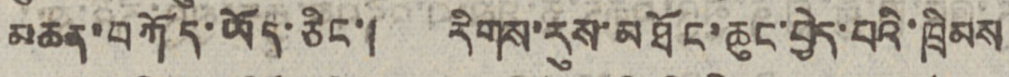མཆན་བཀོད་ཡོད་ཅིང་། རིགས་རུས་མཐོང་ཆུང་བྱེད་པའི་ཁྲིམས
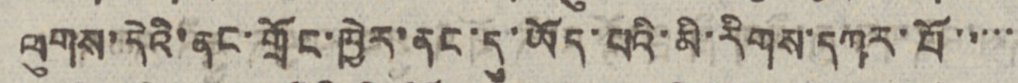ལུགས་དེའི་ནང་གྲོང་ཁྱེར་ནང་དུ་ཡོད་པའི་མི་རིགས་དཀར་པོ་་་་་
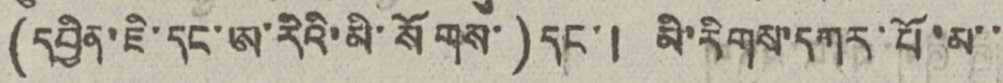(དབྱིན་ཇི་དང་ཨ་རིའི་མི་སོགས་)དང་། མི་རིགས་དཀར་པོ་མ་་
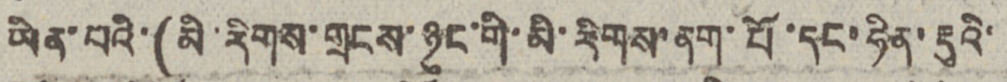ཡིན་པའི་(མི་རིགས་གྲངས་ཉུང་གི་མི་རིགས་ནག་པོ་དང་ཧིན་རྡུའི་
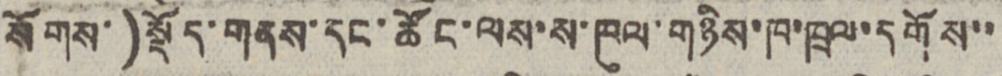སོགས་)སྡོད་གནས་དང་ཚོང་ལས་ས་ཁུལ་གཉིས་ཁ་ཁྲལ་དགོས་་
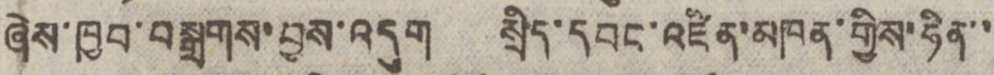ཞེས་ཁྱབ་བསྒྲགས་བྱས་འདུག སྲིད་དབང་འཛིན་མཁན་གྱིས་ཧིན་་
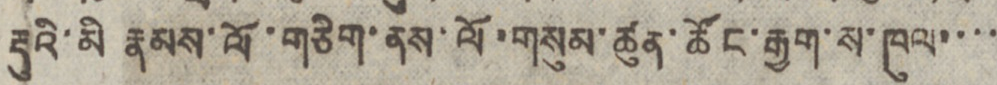རྡུའི་མི རྣམས་ལོ་གཅིག་ནས་ལོ་གསུམ་ཚུན་ཚོང་རྒྱག་ས་ཁུལ་་་་
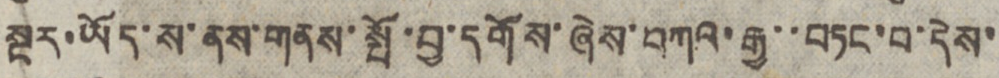སྔར་ཡོད་ས་ནས་གནས་སྤོ་བྱ་དགོས་ཞེས་བཀའ་རྒྱ་་བཏང་བ་དེས་
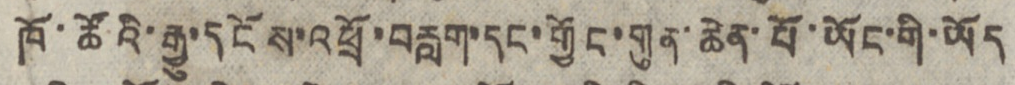ཁོ་ཚོའི་རྒྱུ་དངོས་འཕྲོ་བརླག་དང་གྱོང་གུན་ཆེན་པོ་ཡོང་གི་ཡོད
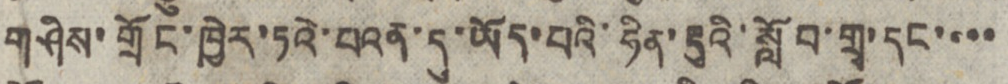གཤིས་གྲོང་ཁྱེར་ཏའེ་པའན་དུ་ཡོད་པའི་ཧིན་རྡུའི་སློབ་གྲྭ་དང་་་་
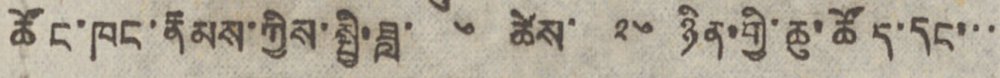ཚོང་ཁང་རྣམས་ཀྱིས་སྤྱི་ཟླ་ ༦ ཚེས་ ༢༦ ཉིན་གྱི་ཆུ་ཚོད་དང་་་
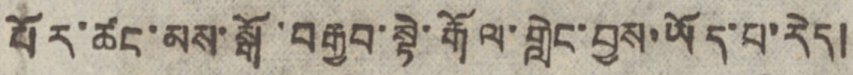པོར་ཚང་མས་སྒོ་བརྒྱབ་སྟེ་རྒོལ་གླེང་བྱས་ཡོད་པ་རེད།
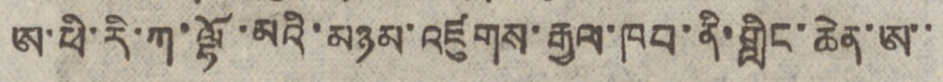ཨ་ཕི་རི་ཀ་ལྷོ་མའི་མཉམ་འཛུགས་རྒྱལ་ཁབ་ནི་གླིང་ཆེན་ཨ་་
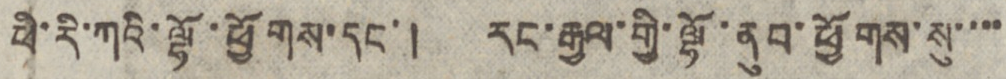ཕི་རི་ཀའི་ལྷོ་ཕྱོགས་དང་། རང་རྒྱལ་གྱི་ལྷོ་ནུབ་ཕྱོགས་སུ་་་་
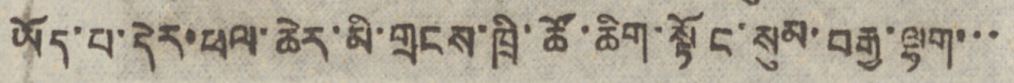ཡོད་པ་དེར་ཕལ་ཆེར་མི་གྲངས་ཁྲི་ཚོ་ཆིག་སྟོང་སུམ་བརྒྱ་ལྷག་་་
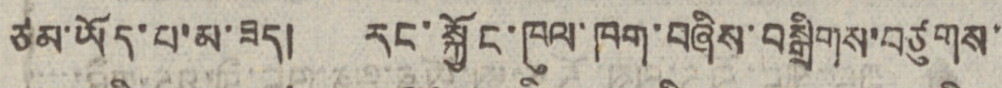ཙམ་ཡོད་པ་མ་ཟད། རང་སྐྱོང་ཁུལ་ཁག་བཞིས་བསྒྲིགས་བཙུགས་
